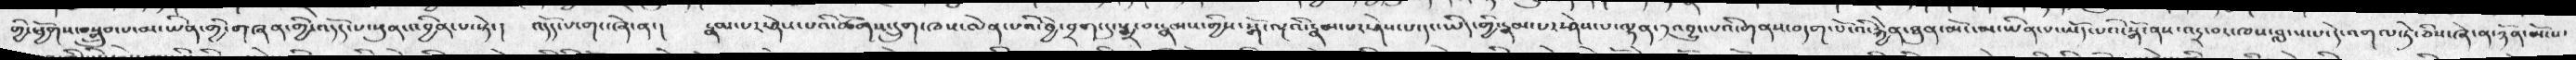གྱི་ཕྱོགས་བསྒྲུབ་པ་མ་ཡིན་གྱི་གཞན་གྱི་འདོད་པ་སུན་འབྱིན་པ་སྟེ་།  འདོད་པ་གང་ཞེ་ན་།  རྣམ་པར་ཤེས་པའི་ཚོགས་དྲུག་ཁས་ལེན་པའི་བྱེ་བྲག་དུ་སྨྲ་བ་རྣམས་གྱིས་སྒོ་ལྔའི་རྣམ་པར་ཤེས་པ་ལྷན་༡་འབྱུང་པའི་གནས་བདག་པོ་འི་རྐྱེན་ཐུན་མོང་མ་ཡིན་པ་ཡོད་པའི་སྒོ་ནས་འདྲ་བ་ཁས་བླངས་པ་དེ་འགལ་ཏེ་ཅིས་ཞེ་ན་ཉོན་མོངས་
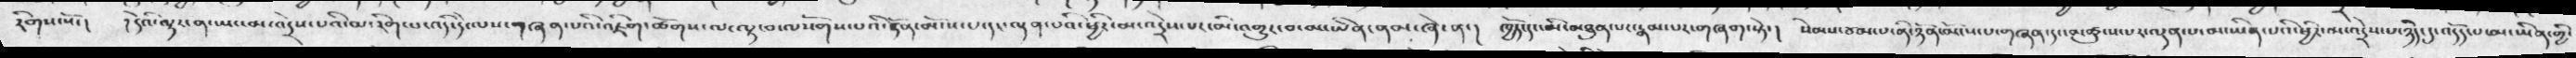རིགས་སོ་།  །དེའི་ལྟར་ན་ཡང་མ་འདྲེས་པའི་མ་རིག་པ་་འདི་དེ་ལས་གཞན་པའི་འཇིག་ཚོགས་ལ་ལྟ་བ་ལསོགས་པའི་ཉོན་མོངས་པ་དངལྡན་པའི་ཕྱིར་མ་འདྲེས་པར་མི་འགྱུར་བ་མ་ཡིན་ནམ་ཞེ་ན་།  ཁྱོད་དེ་མི་མཐུན་པར་རྣམ་པར་གཞག་སྟེ་།  སེམས་ཙམ་པ་ནི་ཉོན་མོངས་པ་གཞན་དང་མཚུངས་པར་ལྡན་པ་མ་ཡིན་པའི་ཕྱིར་མ་འདྲེས་པ་ཉིད་དུ་འདོད་པ་མ་ཡིན་གྱི་
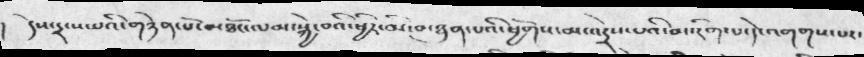།  དེས་དྲངས་པའི་གཉེན་པོ་མཐོང་ལམ་སྐྱེ་བའི་ཕྱིར་མི་མཐུན་པའི་ཕྱོགས་མ་འདྲེས་པའི་མ་རིག་པ་དེ་འགགས་པར་
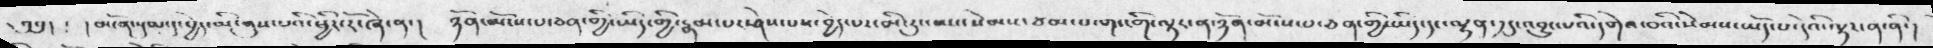༄༅།  ། མངོན་སུམ་དུ་བྱེད་མི་ནུས་པའི་ཕྱིར་རོ་ཞེ་ན་།  ཉོན་མོངས་པ་ཅན་གྱི་ཡིད་གྱི་རྣམ་པར་ཤེས་པས་བྱེད་པར་མི་རུང་བས་སེམས་ཅམ་པ་གང་གི་ལྟར་ན་ཉོན་མོངས་པ་ཅན་གྱི་ཡིད་དང་ལྷན་༡དུ་འབྱུང་པའི་དགེའ་བའི་སེམས་ཡོད་པ་དེའི་ལྟར་ན་ནི་།
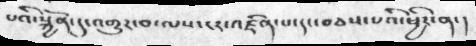པའི་སྐྱོན་དུ་འགྱུར་བ་ལས་ངར་འཛིན་པ་དང་བཅས་པའི་ཕྱིར་ན་།
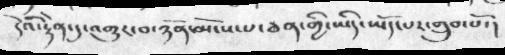དེའི་རྟེན་དུ་འགྱུར་བ་ཉོན་མོངས་པ་ཅན་གྱི་ཡིད་ཡོད་པར་གྲུབ་པོ་།
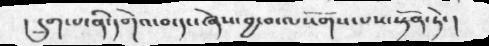། དྲུག་པ་ནི་དགེའ་བ་དང་ཞེས་བྱ་བ་ལསོགས་པས་སྟོན་ཏེ་།
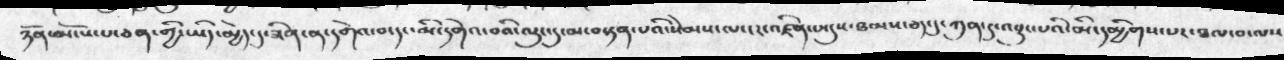ཉོན་མོངས་པ་ཅན་གྱི་ཡིད་མྱེད་དུ་ཟིན་ན་དགེའ་བ་དང་མི་་དགེའ་བའི་ལུང་དུ་མ་བསྟན་པའི་སེམས་ལ་ངར་འཛིན་པ་དུས་ཐམས་ཅད་དུ་ཀུན་དུ་འབྱུང་པའི་མི་དམྱིགས་པར་ཐལ་བ་ལས
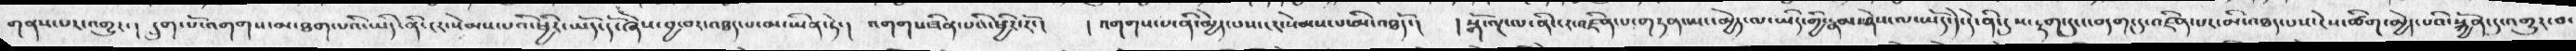གནས་པར་འགྱུར་།  དྲུག་པོ་འགགས་མ་ཐག་པའི་ཡིད་ནི་ངར་སེམས་པའི་ཕྱིར་ཡོད་དོ་ཞེས་བྱ་བར་འཐད་པ་མ་ཡིན་ཏེ་། འགགས་ཟིན་པའི་ཕྱིར་རོ་།  ། འགགས་པ་ནི་མྱེད་པས་དར་སེམས་པ་མི་འཐདོ་།  ། སྒོ་ལྔ་ལ་ནི་ངར་འཛིན་པ་གཏན་ཡང་མྱེད་ལ་ཡིད་གྱི་རྣམ་ཤེས་ལ་ཡོད་དེ་དེ་ནི་དུས་རྟག་དུ་ང་བདག་དུ་འཛིན་པར་མི་འཐད་པས་ངེས་ཚིག་མྱེད་པའི་སྐྱོན་དུ་འགྱུར་བ་
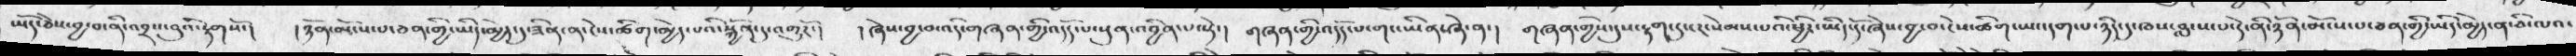ཡོད་ཅེས་བྱ་བ་ནི་འབྲས་བུའི་རྟགསོ་།   ། ཉོན་མོངས་པ་ཅན་གྱི་ཡིད་མྱེད་དུ་ཟིན་ན་ངེས་ཚིག་མྱེད་པའི་སྐྱོན་དུ་འགྱུརོ་།   ། ཞེས་བྱ་བ་འདི་གཞན་གྱི་འདོད་པ་སུན་འབྱིན་པ་སྟེ་།   གཞན་གྱི་འདདོ་པ་གང་ཡིན་ཞེ་ན་།   གཞན་གྱིས་དུས་རྟག་དུ་ངར་སེམས་པའི་ཕྱིར་ཡིད་དོ་ཞེས་བྱ་བ་ངེས་ཚིག་ཡང་དག་པ་ཉིད་དུ་ཁས་བླངས་པ་དེ་ནི་ཉོན་མོངས་པ་ཅན་གྱི་ཡིད་མྱེད་ན་ཅི་ལའ་
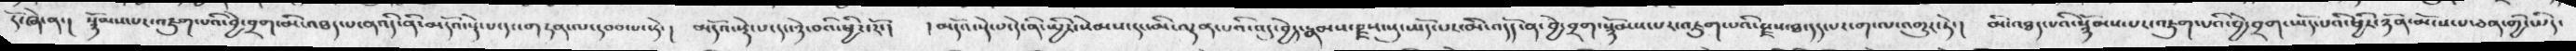རོ་ཞེ་ན་།  སྙོམས་པང་འཇུག་པའི་བྱེ་བྲག་མི་འཐད་པ་ནའདི་ནི་མདའོ་དེ་པ་དང་གཏན་ལ་དབབ་པ་སྟེ་།  མདོའ་སྡེ་པ་དང་ཉེ་བའི་ཕྱིར་རོ་།     ། མདའོ་སྡེ་པ་དེ་ནི་སྤྱིར་སེམས་དང་མི་ལྡན་པའི་འདུ་བྱེད་རྣམས་རྫས་སུ་ཡོད་པར་མི་འདོད་ན་བྱེ་བྲག་སྙོམས་པར་འཇུག་པའི་རྫས་ཐ་དད་པར་ག་ལ་འགྱུར་ཏེ་།   མི་འཐད་པའི་སྙོམས་པར་འཇུག་པའི་བྱེ་བྲག་ཡོད་པའི་ཕྱིར་ཉོན་མོངས་པ་ཅན་གྱི་ཡིད་
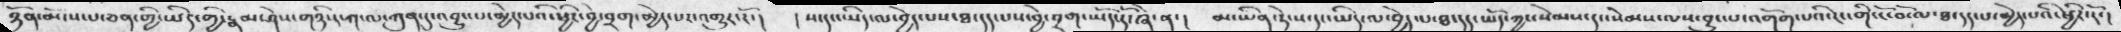ཉོན་མོངས་པ་ཅན་གྱི་ཡིད་གྱི་རྣམ་ཤེས་གཉིས་ཀ་ལ་ཀུན་དུ་འབྱུང་པ་མྱེད་པའི་ཕྱིར་བྱེ་བྲག་མྱེད་པར་འགྱུར་རོ་།   ། ས་དང་ཡིད་ལ་བྱེད་པས་ཐ་དད་པས་བྱེ་བྲག་ཡོད་དོ་ཞེ་ན་།   མ་ཡིན་ཏེ་ས་དང་ཡིད་ལ་བྱེད་པ་ཐ་དད་ཡོད་ཀྱང་སེམས་དང་སེམས་ལས་བྱུང་པ་འགོག་པའི་རང་གི་ངོ་བོ་ལ་ཐ་དད་པ་མྱེད་པའི་ཕྱིར་རོ་།
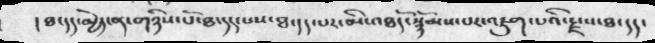། ཐ་དད་མྱེད་ན་གཉིས་པོ་ཐ་དང་པས་ཐ་དད་པར་མི་འཐདོ་སྙོམས་པར་འཇུག་པའི་རྗ་ས་ཐ་དད་
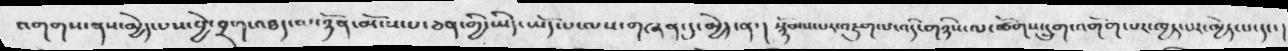འགགས་ནས་མྱེད་པས་བྱེ་གྲག་འཐད་ལ་ཉོན་མོངས་པ་ཅན་གྱི་ཡིད་ཡོད་པ་ལས་གཞན་དུ་མྱེད་ན་།   སྙོམས་པར་འཇུག་པ་འདི་གཉིས་ལ་ཚོགས་དྲུག་འགོག་པར་ཁྱད་པར་མྱེད་པ་དང་།
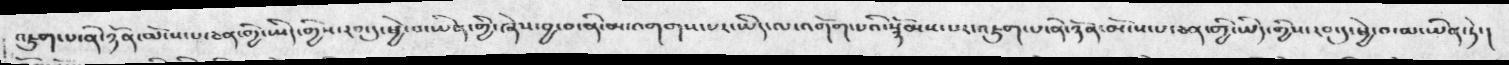འཇུག་པ་ནི་ཉོན་མོངས་པ་ཅན་གྱི་ཡིད་གྱིས་རབ་དུ་ཕྱེ་བ་ཡིན་གྱི་ཞེས་བྱ་བ་ནི་མ་འགགས་པར་ཡིད་ལ་འགོག་པའི་སྙོམས་པར་འཇུག་པ་ནི་ཉོན་མོངས་པ་ཅན་གྱི་ཡིད་གྱིས་རབ་དུ་ཕྱེ་བ་མ་ཡིན་ཏེ་།
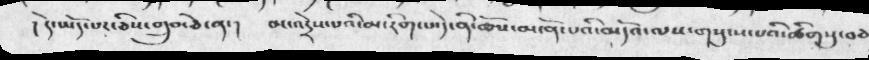། དེ་ཡོད་པར་ཅིས་གྲུབ་ཅེ་ན་།  མ་འདྲེས་པའི་མ་རིག་པ་དེ་ནི་ཆོས་མངོན་པའི་མདོའ་ལས་གསུངས་པའི་ཚིགསུ་བཅ
